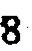8
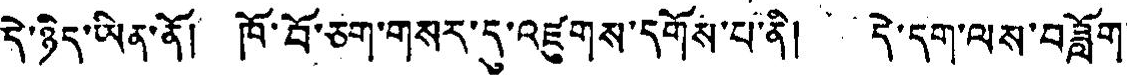དེ་ཉིད་ཡིན་ནོ། ཁོ་བོ་ཅག་གསར་དུ་འཛུགས་དགོས་པ་ནི། དེ་དག་ལས་བཟློག་
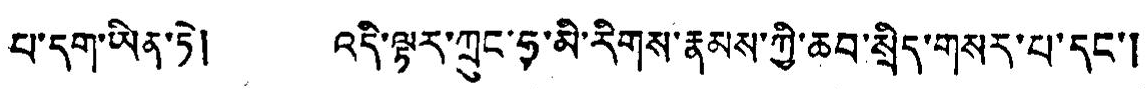པ་དག་ཡིན་ཏེ། འདི་ལྟར་ཀྲུང་ཧྭ་མི་རིགས་རྣམས་ཀྱི་ཆབ་སྲིད་གསར་པ་དང་།
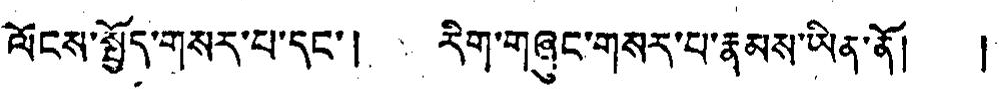ལོངས་སྤྱོད་གསར་པ་དང་། རིག་གཞུང་གསར་པ་རྣམས་ཡིན་ནོ། །
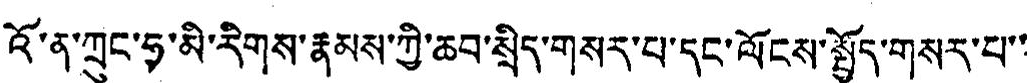འོ་ན་ཀྲུང་ཧྭ་མི་རིགས་རྣམས་ཀྱི་ཆབ་སྲིད་གསར་པ་དང་ལོངས་སྤྱོད་གསར་པ་་
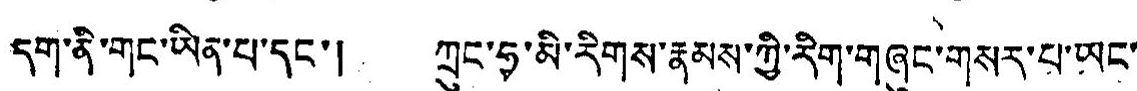དག་ནི་གང་ཡིན་པ་དང་། ཀྲུང་ཧྭ་མི་རིགས་རྣམས་ཀྱི་རིག་གཞུང་གསར་པ་ཡང་
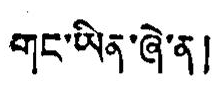གང་ཡིན་ཞེ་ན།
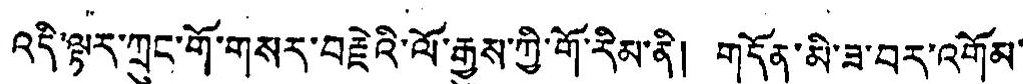འདི་ལྟར་ཀྲུང་གོ་གསར་བརྗེའི་ལོ་རྒྱུས་ཀྱི་གོ་རིམ་ནི། གདོན་མི་ཟ་བར་འགོམ་
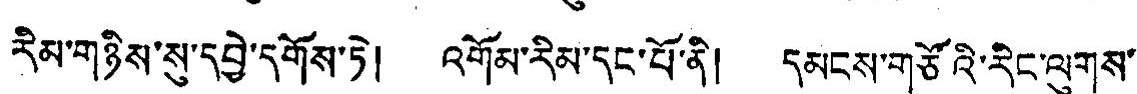རིམ་གཉིས་སུ་དབྱེ་དགོས་ཏེ། འགོམ་རིམ་དང་པོ་ནི། དམངས་གཙོའི་རིང་ལུགས་
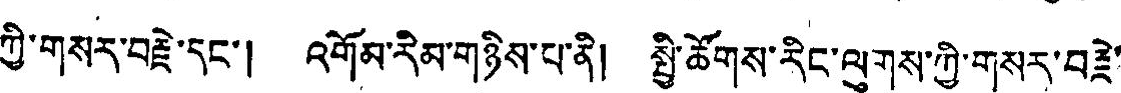ཀྱི་གསར་བརྗེ་དང་། འགོམ་རིམ་གཉིས་པ་ནི། སྤྱི་ཚོགས་རིང་ལུགས་ཀྱི་གསར་བརྗེ་
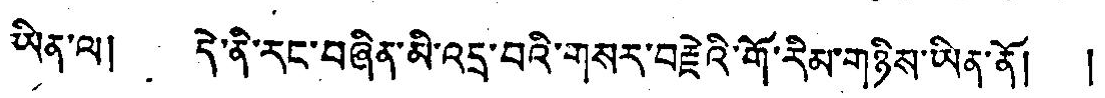ཡིན་ལ། དེ་ནི་རང་བཞིན་མི་འདྲ་བའི་གསར་བརྗེའི་གོ་རིམ་གཉིས་ཡིན་ནོ། །
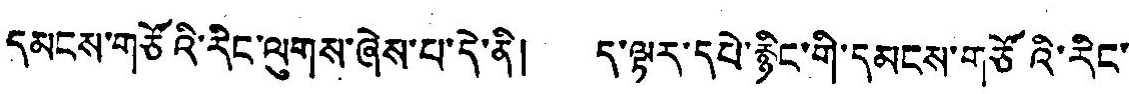དམངས་གཙོའི་རིང་ལུགས་ཞེས་པ་དེ་ནི། ད་ལྟར་དཔེ་རྙིང་གི་དམངས་གཙོའི་རིང་
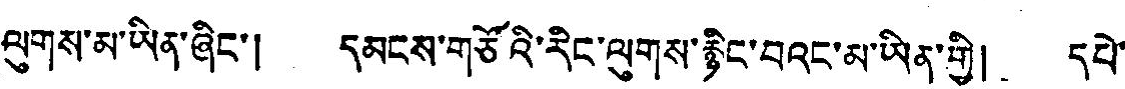ལུགས་མ་ཡིན་ཞིང་། དམངས་གཙོའི་རིང་ལུགས་རྙིང་བའང་མ་ཡིན་གྱི། དཔེ་
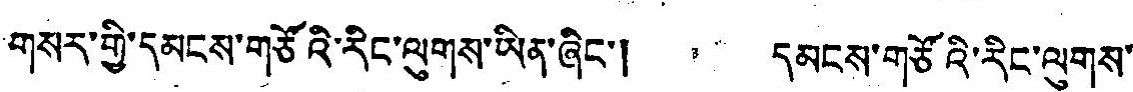གསར་གྱི་དམངས་གཙོའི་རིང་ལུགས་ཡིན་ཞིང་། དམངས་གཙོའི་རིང་ལུགས་
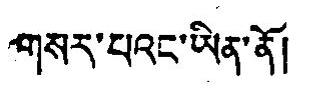གསར་པའང་ཡིན་ནོ།
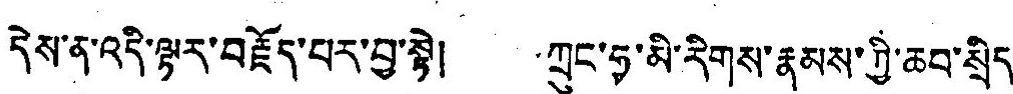དེས་ན་འདི་ལྟར་བརྗོད་པར་བྱ་སྟེ། ཀྲུང་ཧྭ་མི་རིགས་རྣམས་གྱི་ཆབ་སྲིད་
